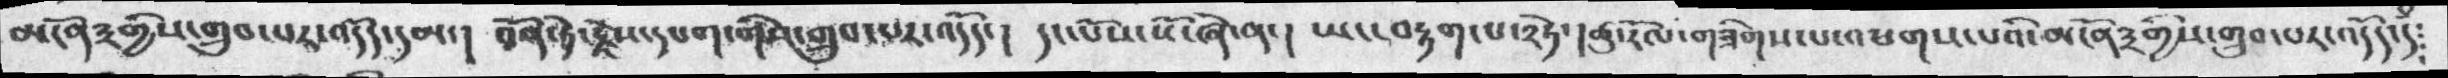མངོན་༣་གྱིས་གྲུབ་པར་འདོད་དམ་།  འོན་ཏེ་རྗེས་དཔག་གིས་གྲུབ་པར་འདོད་།  དང་པོས་སོ་ཞེ་ན་།  ཡང་བརྟག་པ་༢་ཏེ་།ཚུ་རོལ་གཟིགས་པ་འཕགས་པའི་མངོན་༣་གྱིས་གྲུབ་པར་འདོད་དེ༴
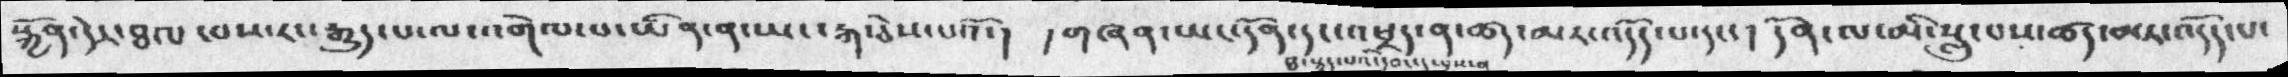སྐྱོན་དེར་ཐལ་བས་རང་རྒྱུད་པ་ལ་འགེལ་པ་ཡིན་ན་ཡང་རྐ་ཅེས་པའོ་།  །གཞན་ཡང་དོན་དང་ཐ་སྙད་པའི་དབང་དུ་བྱས་བ་འཕྲད་ན་ཚད་མར་འདོད་པ་དང་།  དོན་ལ་མི་སླུ་པས་ཚད་མར་འདོད་པ་
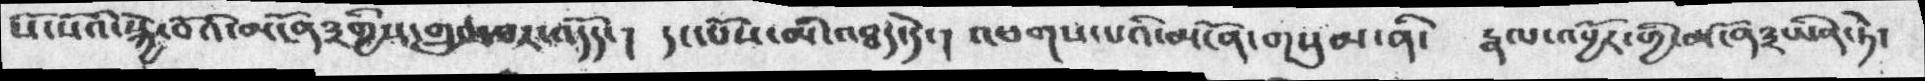སོ་སོའི་སྐྱེ་བོའི་མངོན༣གྱིས་གྲུབ་པར་འདོད་། དང་པོས་མི་འཐད་དེ་། འཕགས་པའི་མངོན་གསུམ་ནི་   རྣལ་འབྱོར་གྱི་མངོན༣ཡིན་ཏེ་
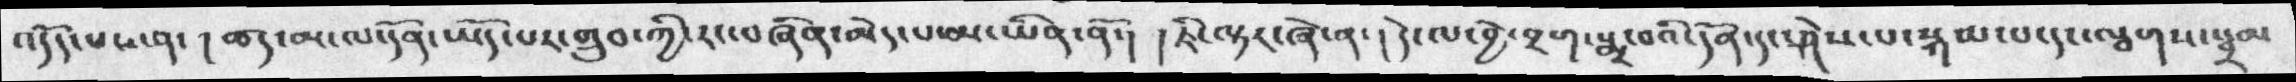འདོད་པས་ན་  ། ཚད་མ་ལ་དོན་ཡོད་པར་གྲུབ་ཀྱི་རང་བཞིན་མེད་པ་མ་ཡིན་ནོ་། ཇི་ལྟར་ཞེ་ན་། དེ་ལ་བྱེ་བྲག་སྨྲ་བའི་དོན་དང་ཤེས་པ་སྐམ་པ་དང་ལྕགས་སྦྲམ
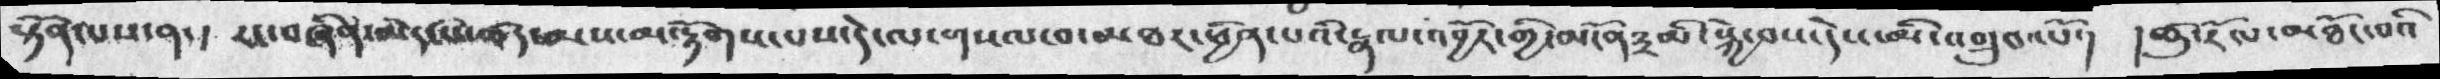སྟོན་པས་ན་། རང་བཞིན་མེད་པ་ཚད་མས་མ་རྟོགས་པས་དེ་ལ་གསལ་བ་མཐར་ཕྱིན་པའི་རྣལ་འབྱོར་གྱི་མངོན༣མི་སྐྱེ་བས་དེས་མི་འགྲུབ་པོ་། །ཚུ་རོལ་མཐོང་བའི
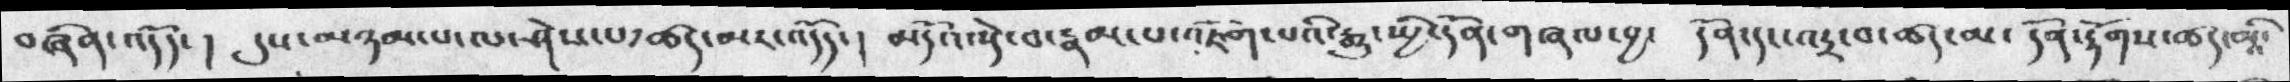བཞིན་འདོད་།   དུས་མཉམ་པ་ལ་ཤེས་པ་ཚད་མར་འདོད་།  མདོའ་སྡེ་བ་རྣམ་པ་འཇོག་པའི་རྒྱུ་སྤྱི་དོན་གཞལ་བྱ་   དོན་དང་འདྲ་བ་ཚད་མ་དོན་རྟོགས་ཚད་མའི་
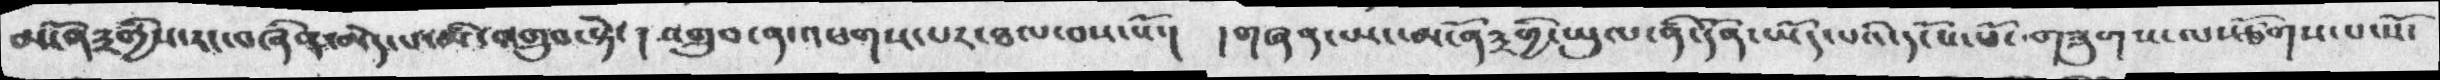མངོན༣གྱིས་རང་བཞིན་མེད་པ་མི་འགྲུབ་སྟེ་། འགྲུབ་ན་འཕགས་པར་ཐལ་བས་སོ་། །གཞན་ཡང་མངོན༣གྱི་ཡུལ་ནི་དོན་ཡོད་པའི་དངོས་པོ་གཟུགས་ལསྕོགས་པ་སོ་
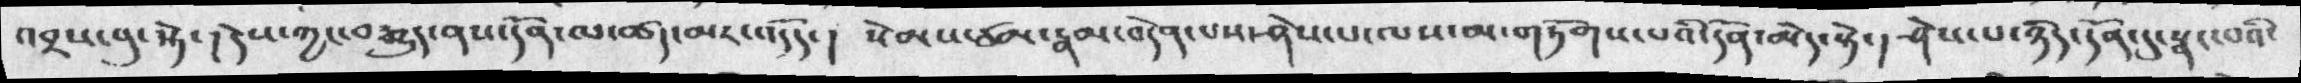འབྲས་བུ་སྟེ་། །ེས་ཀྱང་བརྒྱུད་ནས་དོན་ལ་ཚད་མ་འདོད་། སེམས་ཙམ་རྣམ་བདེན་པས་ཤེས་པ་ལས་མ་གཏོགས་པའི་དོན་མེད་སྟེ་། ཤེས་པ་ཉིད་དོན་དུ་སྣང་བའི་
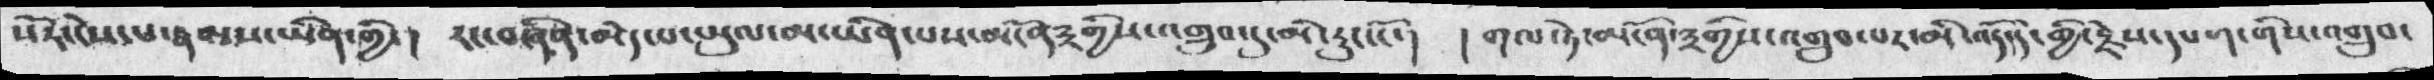སོར་ངེས་པ་རྣམས་ཡིན་གྱི་། རང་བཞིན་མེད་པ་ཡུལ་མ་ཡིན་པས་མངོན༣གྱིས་འགྲུབ་དུ་མི་རུང་ངོ་། ། གལ་ཏེ་མངོན་༣གྱིས་འགྲུབ་པར་མི་འདོན་གྱི་རྗེས་དཔག་གིས་འགྲུབ་
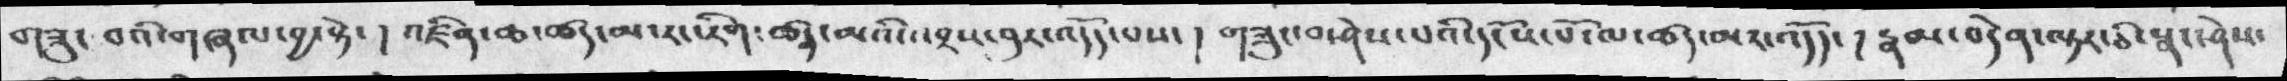གཟུང བའི་གཞལ་བྱ་སྟེ་། འཛིན་ཆ་ཚད་མ་རང་རིག་ཚད་མའི་འབྲས་བུར་འདོད་པས་ ། གཟུང་བ་ཤེས་པའི་དངོས་པོ་ལ་ཚད་མར་འདོད་ །རྣམ་བདེན་ལྟར་ཅི་སྣང་ཤེས་
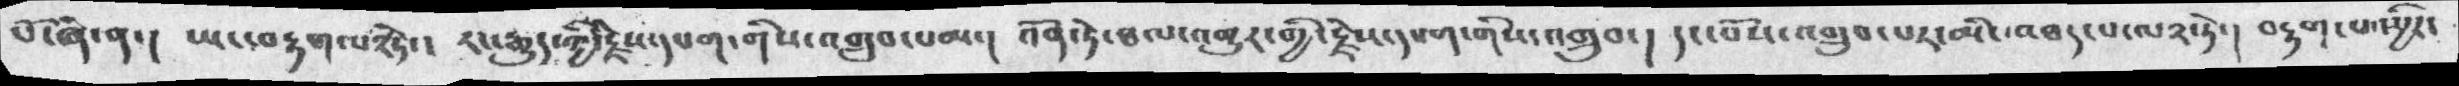པོ་ཞེ་ན་། ཡང་བརྟག་པ༢ཏེ་། རང་རྒྱུད་ཀྱི་རྗེས་དཔག་གིས་འགྲུབ་པམ་། འོན་ཏེ་ཐལ་འགྱུར་གྱི་རྗེས་དཔག་གིས་འགྲུབ་། དང་པོས་འགྲུབ་པར་མི་འཐད་པ་ལ༢་ཏེ་། བརྟག་པ་སྤྱིར་
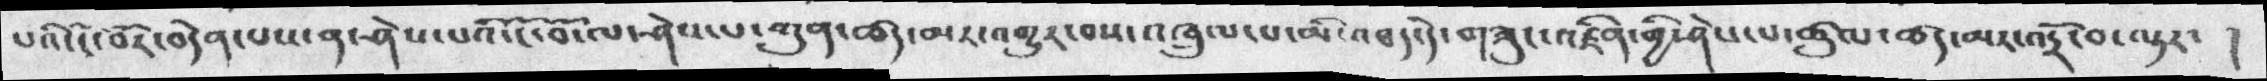པའི་ངོ་བོར་བདེན་པས་ན་ཤེས་པའི་ངོ་བོ་ལ་ཤེས་པ་ཀུན་ཚད་མར་འགྱུར་བས་འཁྲུལ་པ་མི་འཐད་དེ་གཟུང་འཛིན་གྱི་ཤེས་པ་ཚུལ་ཚད་པར་འདྲོ་བ་ལྟར་  །
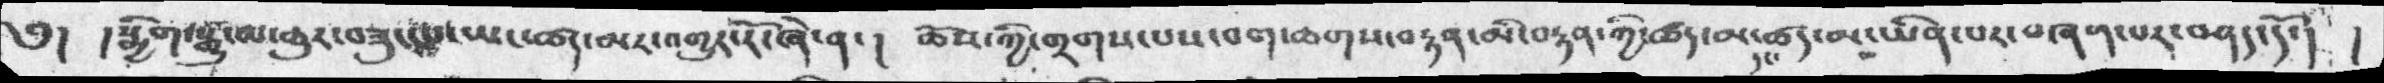༄།  །སྨྱི་སྒྱུ་ལ་ཆུར་བཟུང་བ་ཡང་ཚད་མར་འགྱུར་རོ་ཞེ་ན།   ཆོས་ཀྱི་གྲགས་པས་བག་ཆགས་བརྟན་མི་བརྟན་གྱི་ཚད་མ་དང་ཚད་མ་ཡིན་པར་བཞག་པར་བཤད་དོ་།   །
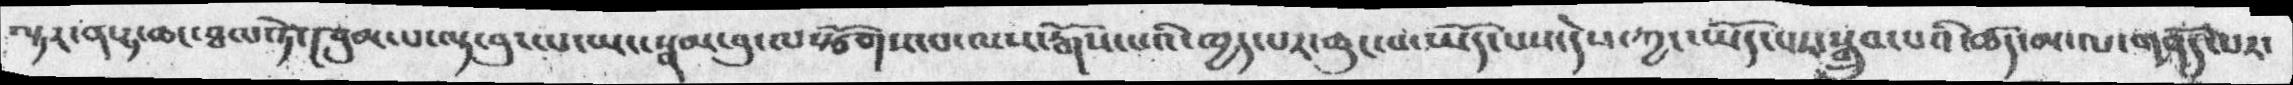ལྟར་ན་ཧ་ཆང་ཐལ་ཏེ་། བུམ་པ་ལྟ་བུ་ལ་ཡང་སྣམ་བུ་ལསྩོགས་པ་ལས་རྒོས་པའི་ཁྱད་པར་ཆུང་པ་ཡོད་པས་དེས་ཀྱང་ཡོད་པར་སྒྲུབ་པའི་ཚད་མ་ལ་གནོད་པར་
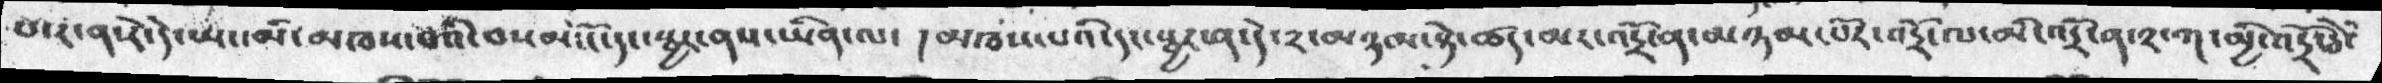པ་ར་ན་རེ་དེ་ཡང་མི་མཁས་པའི་བསམ་ངོ་དང་སྦྱར་ནས་ཡིན་  །མཁས་པའི་དང་སྦྱར་ན་དེ་༢་མཉམ་སྟེ་ཚད་མར་འདྲོ་ན་མཉམ་པར་འདྲོ་ལ་མི་འདྲོ་ན་༢་ཀ་མྱི་འདྲེ་ཅེ་
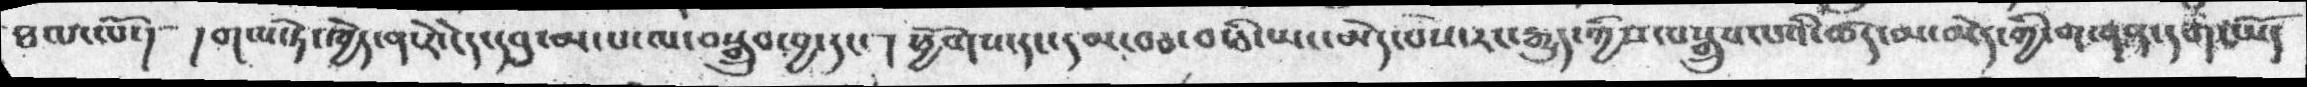ཐལ་ལོ་། །གལ་ཏེ་ཁྱེད་ན་རེ་ངེད་དབུ་མ་པ་ལ་བསྒྲུབ་བྱ་དང་ ། ཕྱོགས་དང་དམ་བཅ་བཅི་ཡང་མེད་པས་རང་རྒྱུད་ཀྱིས་བསྒྲུབ་པའི་ཚད་མ་མེད་ཀྱི་གཞན་དག་ཡོད
